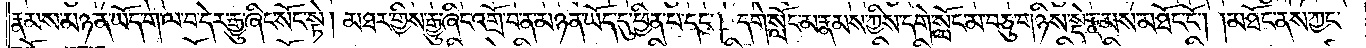རྣམས་མཉན་ཡོད་ག་ལ་བ་དེར་རྒྱུ་ཞིང་སོང་སྟེ། མཐར་གྱིས་རྒྱུ་ཞིང་འགྲོ་བ་ན་མཉན་ཡོད་དུ་ཕྱིན་པ་དང༌། དགེ་སློང་མ་རྣམས་ཀྱིས་དགེ་སློང་མ་བཅུ་གཉིས་སྡེ་རྣམས་མཐོང་ངོ༌། །མཐོང་ནས་ཀྱང་
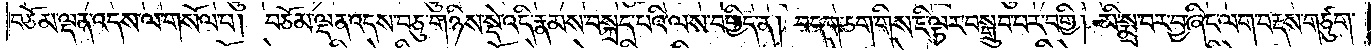བཅོམ་ལྡན་འདས་ལ་གསོལ་བ། བཅོམ་ལྡན་འདས་བཅུ་གཉིས་སྡེ་འདི་རྣམས་བསྐྲད་པའི་ལས་བགྱིད་ན། བདག་ཅག་གིས་ཇི་ལྟར་བསྒྲུབ་པར་བགྱི། མི་སྨྲ་བར་བྱ་ཞིང་ལག་བརྡས་གཙུག་
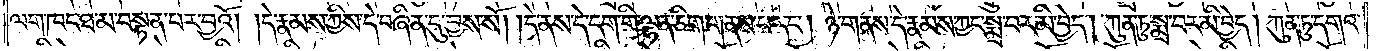ལག་ཁང་ཐ་མ་བསྟན་པར་བྱའོ། །དེ་རྣམས་ཀྱིས་དེ་བཞིན་དུ་བྱས་སོ། །དེ་ནས་དེ་དག་གི་ལྷན་ཅིག་གནས་པ་དང༌། ཉེ་གནས་དེ་རྣམས་ཀྱང་སྨྲ་བར་མི་བྱེད། ཀུན་ཏུ་སྨྲ་བར་མི་བྱེད། ཀུན་ཏུ་དགའ་
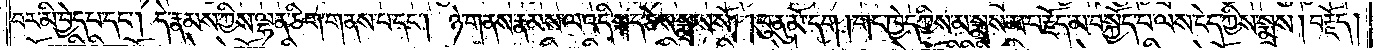བར་མི་བྱེད་པ་དང༌། དེ་རྣམས་ཀྱིས་ལྷན་ཅིག་གནས་པ་དང༌། ཉེ་གནས་རྣམས་ལ་འདི་སྐད་ཅེས་སྨྲས་སོ། །ཕུ་ནུ་མོ་དག །གང་ཁྱེད་ཀྱིས་མ་སྨྲས་མ་བརྗོད་མ་བསྐྱོད་པ་ལས་ངེད་ཀྱིས་སྨྲས། བརྗོད།
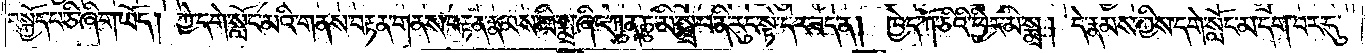བསྐྱོད་པ་ཅི་ཞིག་ཡོད། ཀྱེ་དགེ་སློང་མའི་གནས་བརྟན་གནས་བརྟན་རྣམས་མི་སྨྲ་ཞིང་ཀུན་ཏུ་མི་སྨྲ་བ་ནི་རུང་སྟེ་དེར་ཟད་ན། ཁྱེད་ཀོ་ཅིའི་ཕྱིར་མི་སྨྲ། དེ་རྣམས་ཀྱིས་དགེ་སློང་མ་དག་བར་དུ་
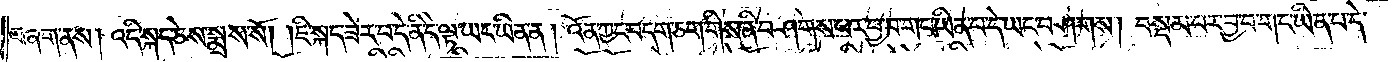བཞག་ནས། འདི་སྐད་ཅེས་སྨྲས་སོ། །ཇི་སྐད་ཟེར་བ་དེ་ནི་དེ་ལྟ་ཡང་ཡིན་ན། འོན་ཀྱང་བདག་ཅག་གིས་ནི་བཤགས་པར་བྱ་བ་གང་ཡིན་པ་དེ་ཡང་བཤགས། བསྡམ་པར་བྱ་བ་གང་ཡིན་པ་དེ་
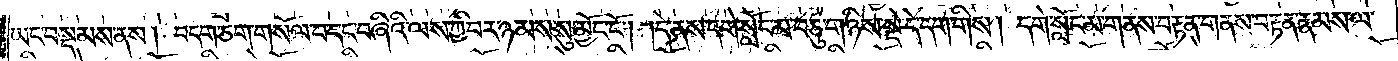ཡང་བསྡམས་ནས། བདག་ཅག་གསོལ་བ་དང་བཞིའི་ལས་ཀྱི་བར་ཉམས་སུ་མྱོང་ངོ༌། །དེ་ནས་དགེ་སློང་མ་བཅུ་གཉིས་སྡེ་དེ་དག་གིས། དགེ་སློང་མ་གནས་བརྟན་གནས་བརྟན་རྣམས་ལ་
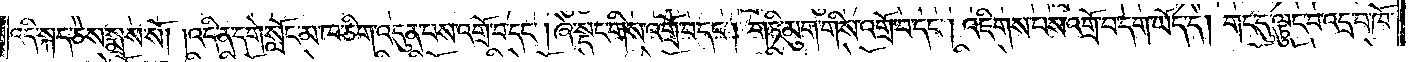འདི་སྐད་ཅེས་སྨྲས་སོ། །འདི་ན་དགེ་སློང་མ་ཁ་ཅིག་འདུན་པས་འགྲོ་བ་དང༌། ཞེ་སྡང་གིས་འགྲོ་བ་དང༌། གཏི་མུག་གིས་འགྲོ་བ་དང༌། འཇིགས་པས་འགྲོ་བ་དག་ཡོད་དེ། གང་དུ་ལྟུང་བ་འདྲ་བ་ཁོ་
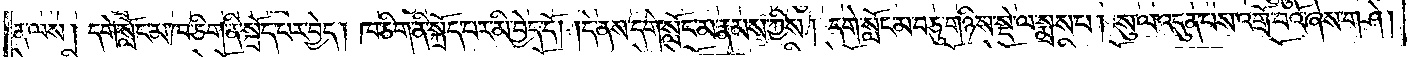ན་ལས། དགེ་སློང་མ་ཁ་ཅིག་ནི་སྐྲོད་པར་བྱེད། ཁ་ཅིག་ནི་སྐྲོད་པར་མི་བྱེད་དོ། །དེ་ནས་དགེ་སློང་མ་རྣམས་ཀྱིས། དགེ་སློང་མ་བཅུ་གཉིས་སྡེ་ལ་སྨྲས་པ། སུ་ལ་འདུན་པས་འགྲོ་བའོ་ཞེས་གཤེ།
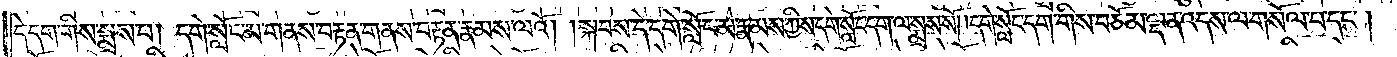དེ་དག་གིས་སྨྲས་པ། དགེ་སློང་མ་གནས་བརྟན་གནས་བརྟན་རྣམས་ལའོ། །སྐབས་དེ་དགེ་སློང་མ་རྣམས་ཀྱིས་དགེ་སློང་དག་ལ་སྨྲས་སོ། །དགེ་སློང་དག་གིས་བཅོམ་ལྡན་འདས་ལ་གསོལ་བ་དང༌།
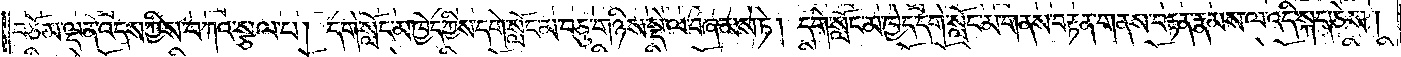བཅོམ་ལྡན་འདས་ཀྱིས་བཀའ་སྩལ་པ། དགེ་སློང་མ་ཁྱེད་ཀྱིས་དགེ་སློང་མ་བཅུ་གཉིས་སྡེ་ལ་བཞམས་ཏེ། དགེ་སློང་མ་ཁྱེད་དགེ་སློང་མ་གནས་བརྟན་གནས་བརྟན་རྣམས་ལ་འདི་སྐད་ཅེས།
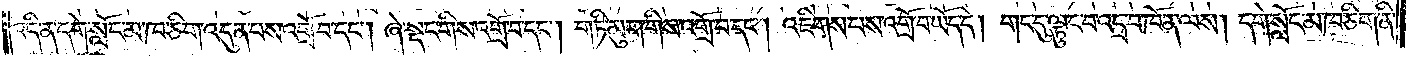འདི་ན་དགེ་སློང་མ་ཁ་ཅིག་འདུན་པས་འགྲོ་བ་དང༌། ཞེ་སྡང་གིས་འགྲོ་བ་དང༌། གཏི་མུག་གིས་འགྲོ་བ་དང༌། འཇིགས་པས་འགྲོ་བ་ཡོད་དེ། གང་དུ་ལྟུང་བ་འདྲ་བ་ཁོ་ན་ལས། དགེ་སློང་མ་ཁ་ཅིག་ནི་
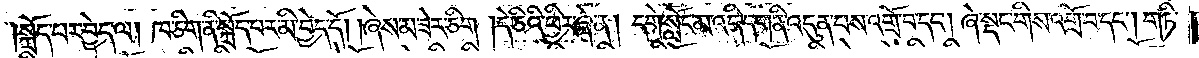སྐྲོད་པར་བྱེད་ལ། ཁ་ཅིག་ནི་སྐྲོད་པར་མི་བྱེད་དོ། །ཞེས་མ་ཟེར་ཅིག །དེ་ཅིའི་ཕྱིར་ཞེ་ན། དགེ་སློང་མ་འདི་དག་ནི་འདུན་པས་འགྲོ་བ་དང༌། ཞེ་སྡང་གིས་འགྲོ་བ་དང༌། གཏི་
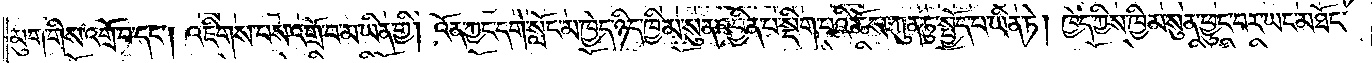མུག་གིས་འགྲོ་བ་དང༌། འཇིགས་པས་འགྲོ་བ་མ་ཡིན་གྱི། འོན་ཀྱང་དགེ་སློང་མ་ཁྱེད་ཉིད་ཁྱིམ་སུན་འབྱིན་པ་སྡིག་པའི་ཆོས་ཀུན་ཏུ་སྤྱོད་པ་ཡིན་ཏེ། ཁྱེད་ཀྱིས་ཁྱིམ་སུན་ཕྱུང་བར་ཡང་མཐོང་
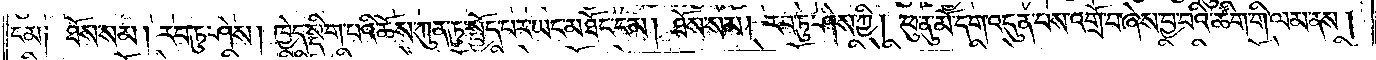ངམ༑ ཐོས་སམ། རབ་ཏུ་ཤེས། ཁྱེད་སྡིག་པའི་ཆོས་ཀུན་ཏུ་སྤྱོད་པར་ཡང་མཐོང་ངམ། ཐོས་སམ། རབ་ཏུ་ཤེས་ཀྱི། ཕུ་ནུ་མོ་དགེ་འདུན་པས་འགྲོ་བ་ཞེས་བྱ་བའི་ཚིག་གི་ལམ་ནས།
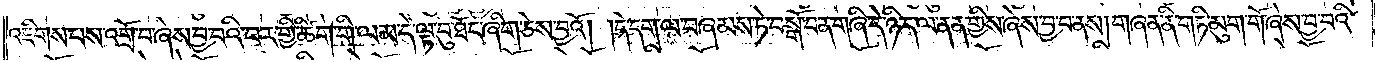འཇིགས་པས་འགྲོ་བ་ཞེས་བྱ་བའི་བར་གྱི་ཚིག་གི་ལམ་དེ་ལྟ་བུ་ཐོང་ཞིག་ཅེས་བྱའོ། །དེ་དག་ལ་བཞམས་ཏེ་བསྒོ་བ་ན་གཞི་དེ་ཉིད་ལ་ནན་གྱིས་ཞེས་བྱ་བ་ནས། གཞན་ནི་གཏི་མུག་གོ་ཞེས་བྱ་བའི་
